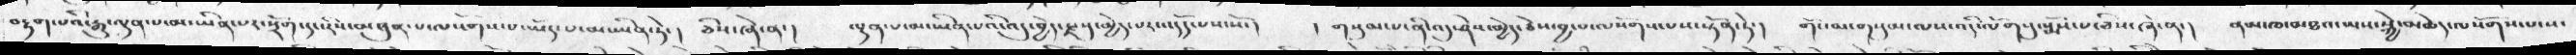བརྟག་པའི་རྒུ་ལྡན་པ་མ་ཡིན་པ་སྲོག་དང་རིས་མཐུན་པ་ལསོགས་པ་ཡོད་པ་མ་ཡིན་ཏེ་། ཅིས་ཞེ་ན་། ལྡན་པ་མ་ཡིན་པའི་འདུ་བྱེད་རྫསུ་མྱེད་པར་འདོད་པས་སོ་།   ། གསུམ་པ་ནི་འདུ་ཤེས་མྱེད་ཅེས་བྱ་བ་ལསོགས་པས་སྟོན་ཏེ་།  གོང་མ་གསུམ་ལས་འདི་ལོགསུ་སྨོས་པ་ཅིས་ཞེ་ན་།  ནམ་ཁ་མཐའ་ཡས་སྐྱེ་མཆེད་ལསོགས་པ་ས་
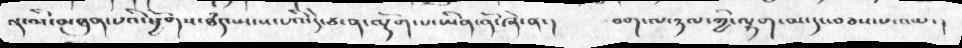ན་མི་མཐུན་པའི་ཕྱོགས་ཐཾད་སྤངས་པའི་དེ་ཅ་ན་ལྡོག་པ་ཡིན་ནོ་ཞེ་ན་།   བག་ལ་ཉལ་ཀྱི་ལྷག་མ་དང་བཅས་པ་འམ་།
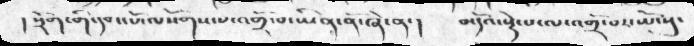། སྲོག་གི་དབང་པོ་ལསོགས་པ་འགྲོ་བ་ཡིན་ནོ་ཞེ་ན་།  མདོའ་སྡེ་པ་ལ་འགྲོ་བར་ཡོངསུ་
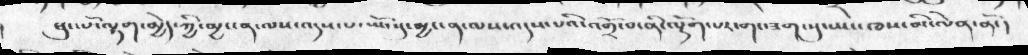ཕུང་པོ་ལྟག་མྱེད་ཀྱི་མྱ་ངན་ལས་འདས་པ་ཡོངསུ་མྱ་ངན་ལས་འདས་པའི་འགྲོ་བ་ནི་ལྟོག་པར་གང་ཟག་སུ་ཡང་ཁས་མི་ལེན་ནོ་།
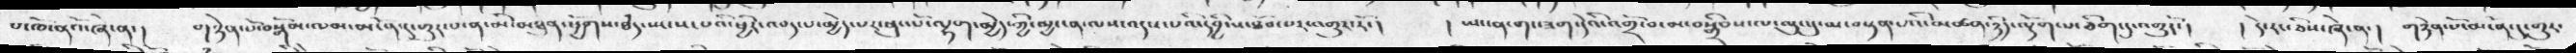པ་ཁོ་ནའོ་ཞེ་ན་།  གཉེན་པོ་བསྒོམ་ལམ་མངོན་དུ་གྱུར་པན་མི་མཐུན་ཕྱོགས་ཐཾད་ཡངས་པའི་ཕྱིར་འབད་པ་མྱེད་པར་ཕུང་པོ་ལྷག་མྱེད་ཀྱི་མྱ་ངན་ལས་འདས་པའི་དབྱིངས་ཐོབ་པར་འགྱུར་རོ་།  ། ཡང་ན་གང་ཟག་དེའི་འགྲོ་བ་མ་བསྒྲིབས་ལ་ལུང་དུ་མ་བསྟན་པའི་མཚན་ཉིད་ལྡོག་པ་ཅིག་དུ་འགྱུརོང།   ། དེ་རང་ཅེས་ཞེ་ན་།  གཉེན་པོ་མངོན་དུ་གྱུར་
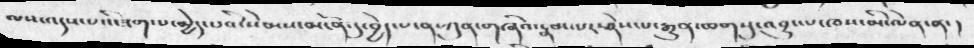ལས་འདས་པའི་ཟག་པ་མྱེད་པའི་སེམས་མངོན་དུ་བྱེད་པ་ན་ཀུན་གཞིའ་རྣམ་པར་ཤེས་པ་རྒྱུན་ཆགསུ་འབྱུང་པ་ཁས་མི་ལེན་ན་།
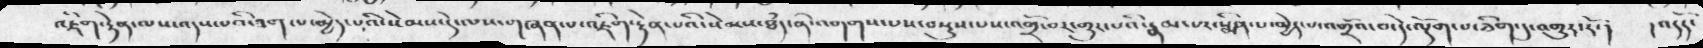འཇིག་རྟེན་ལས་འདས་པའི་ཟག་པ་མྱེད་པའི་སེམས་དེ་ལས་གཞན་པ་འཇིག་རྟེན་པའི་སེམས་ཐཾད་ནི་འགགས་པས་བསྡུས་པས་འགྲོ་བར་གྱུར་པའི་རྣམ་པར་སྨིན་པ་མྱེད་པ་འགྲོའ་བ་དེ་ལྡོག་པ་ཅིག་དུ་འགྱུར་རོ་།  ། འདོད་
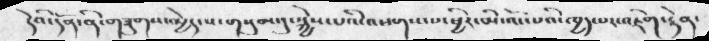དེའི་དོན་ནི་གཟུགས་མྱེད་པ་གསུམ་དུ་སྐྱེས་པའི་འཕགས་པ་ཕྱིར་མི་འོང་པའི་ཁྱད་པར་འཇིག་རྟེན་
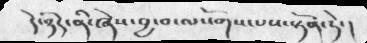དེ་ཉིད་ནི་ཞེས་བྱ་བ་ལསོགས་པས་སྟོན་ཏེ་།
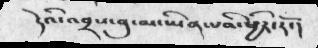དེའི་འབྲས་བུ་མ་ཡིན་པའི་ཕྱིར་རོ་།
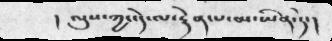། ལུས་ཀྱང་དེ་ལ་རྟེན་པ་མ་ཡིན་ཏེ་།
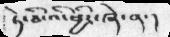ཏེ་ཅི་འི་ཕྱིར་ཞེ་ན་།
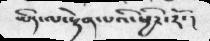ཡིད་ལ་སྟེན་པའི་ཕྱིར་རོ་།
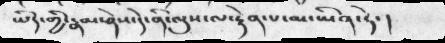ཡིད་གྱི་རྣམ་ཤེས་དེ་ནི་ལུས་ལ་རྟེན་པ་མ་ཡིན་ཏེ་།
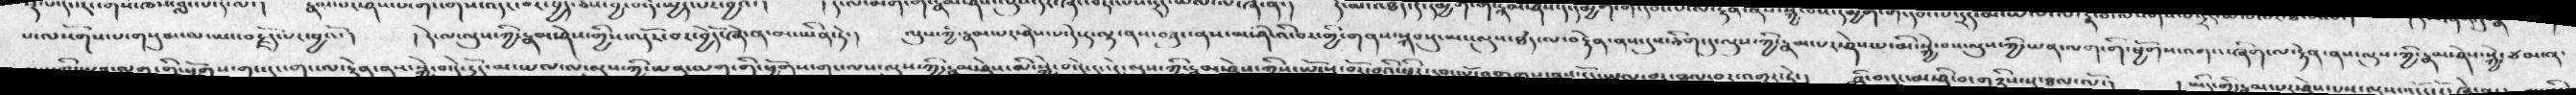པ་ལསོགས་པ་གསུམ་ལ་ཡང་བརྗོད་པར་བྱའོ་།  ། དེ་ལ་ལུས་ཀྱི་རྣམ་ཤེས་གྱིས་འདོར་བར་བྱེདོ་ཞེ་ན་མ་ཡིན་ཏེ་།  ལུས་ཀྱི་རྣམ་པར་ཤེས་པ་དེ་ད་ལྟ་ནས་བཟུང་ནས་མ་ཤི་འི་བར་གྱི་གནས་སྐབསུ་མ་ལུས་ཐཾད་ལ་བརྟེན་ནས་དུས་ཅིག་དུ་ལུས་ཀྱི་རྣམ་པར་ཤེས་པ་མི་སྐྱེ་བས་ལུས་ཀྱི་ཡན་ལག་གི་ཕྱོགས་འགའ་ཞིག་ལ་རྟེན་ནས་ལུས་ཀྱི་རྣམ་ཤེས་སྐྱེ་ཙམ་ལྟ་
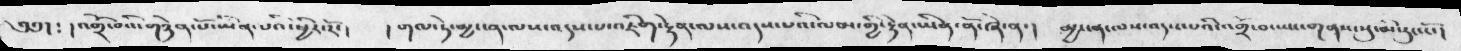༄༅། ༴ ། འགྲོ་བའི་གཉེན་པོ་ཡིན་པའི་ཕྱིར་རོ་།  ། གལ་ཏེ་མྱ་ངན་ལས་འདས་པ་འཇིག་རྟེན་ལས་འདས་པའི་ལམ་གྱི་རྟེན་ཡིན་ནོ་ཞེ་ན་།  མྱ་ངན་ལས་འདས་པའི་འགྲོ་བ་ཡང་གནས་སུ་མི་རུང་ངོ་།
